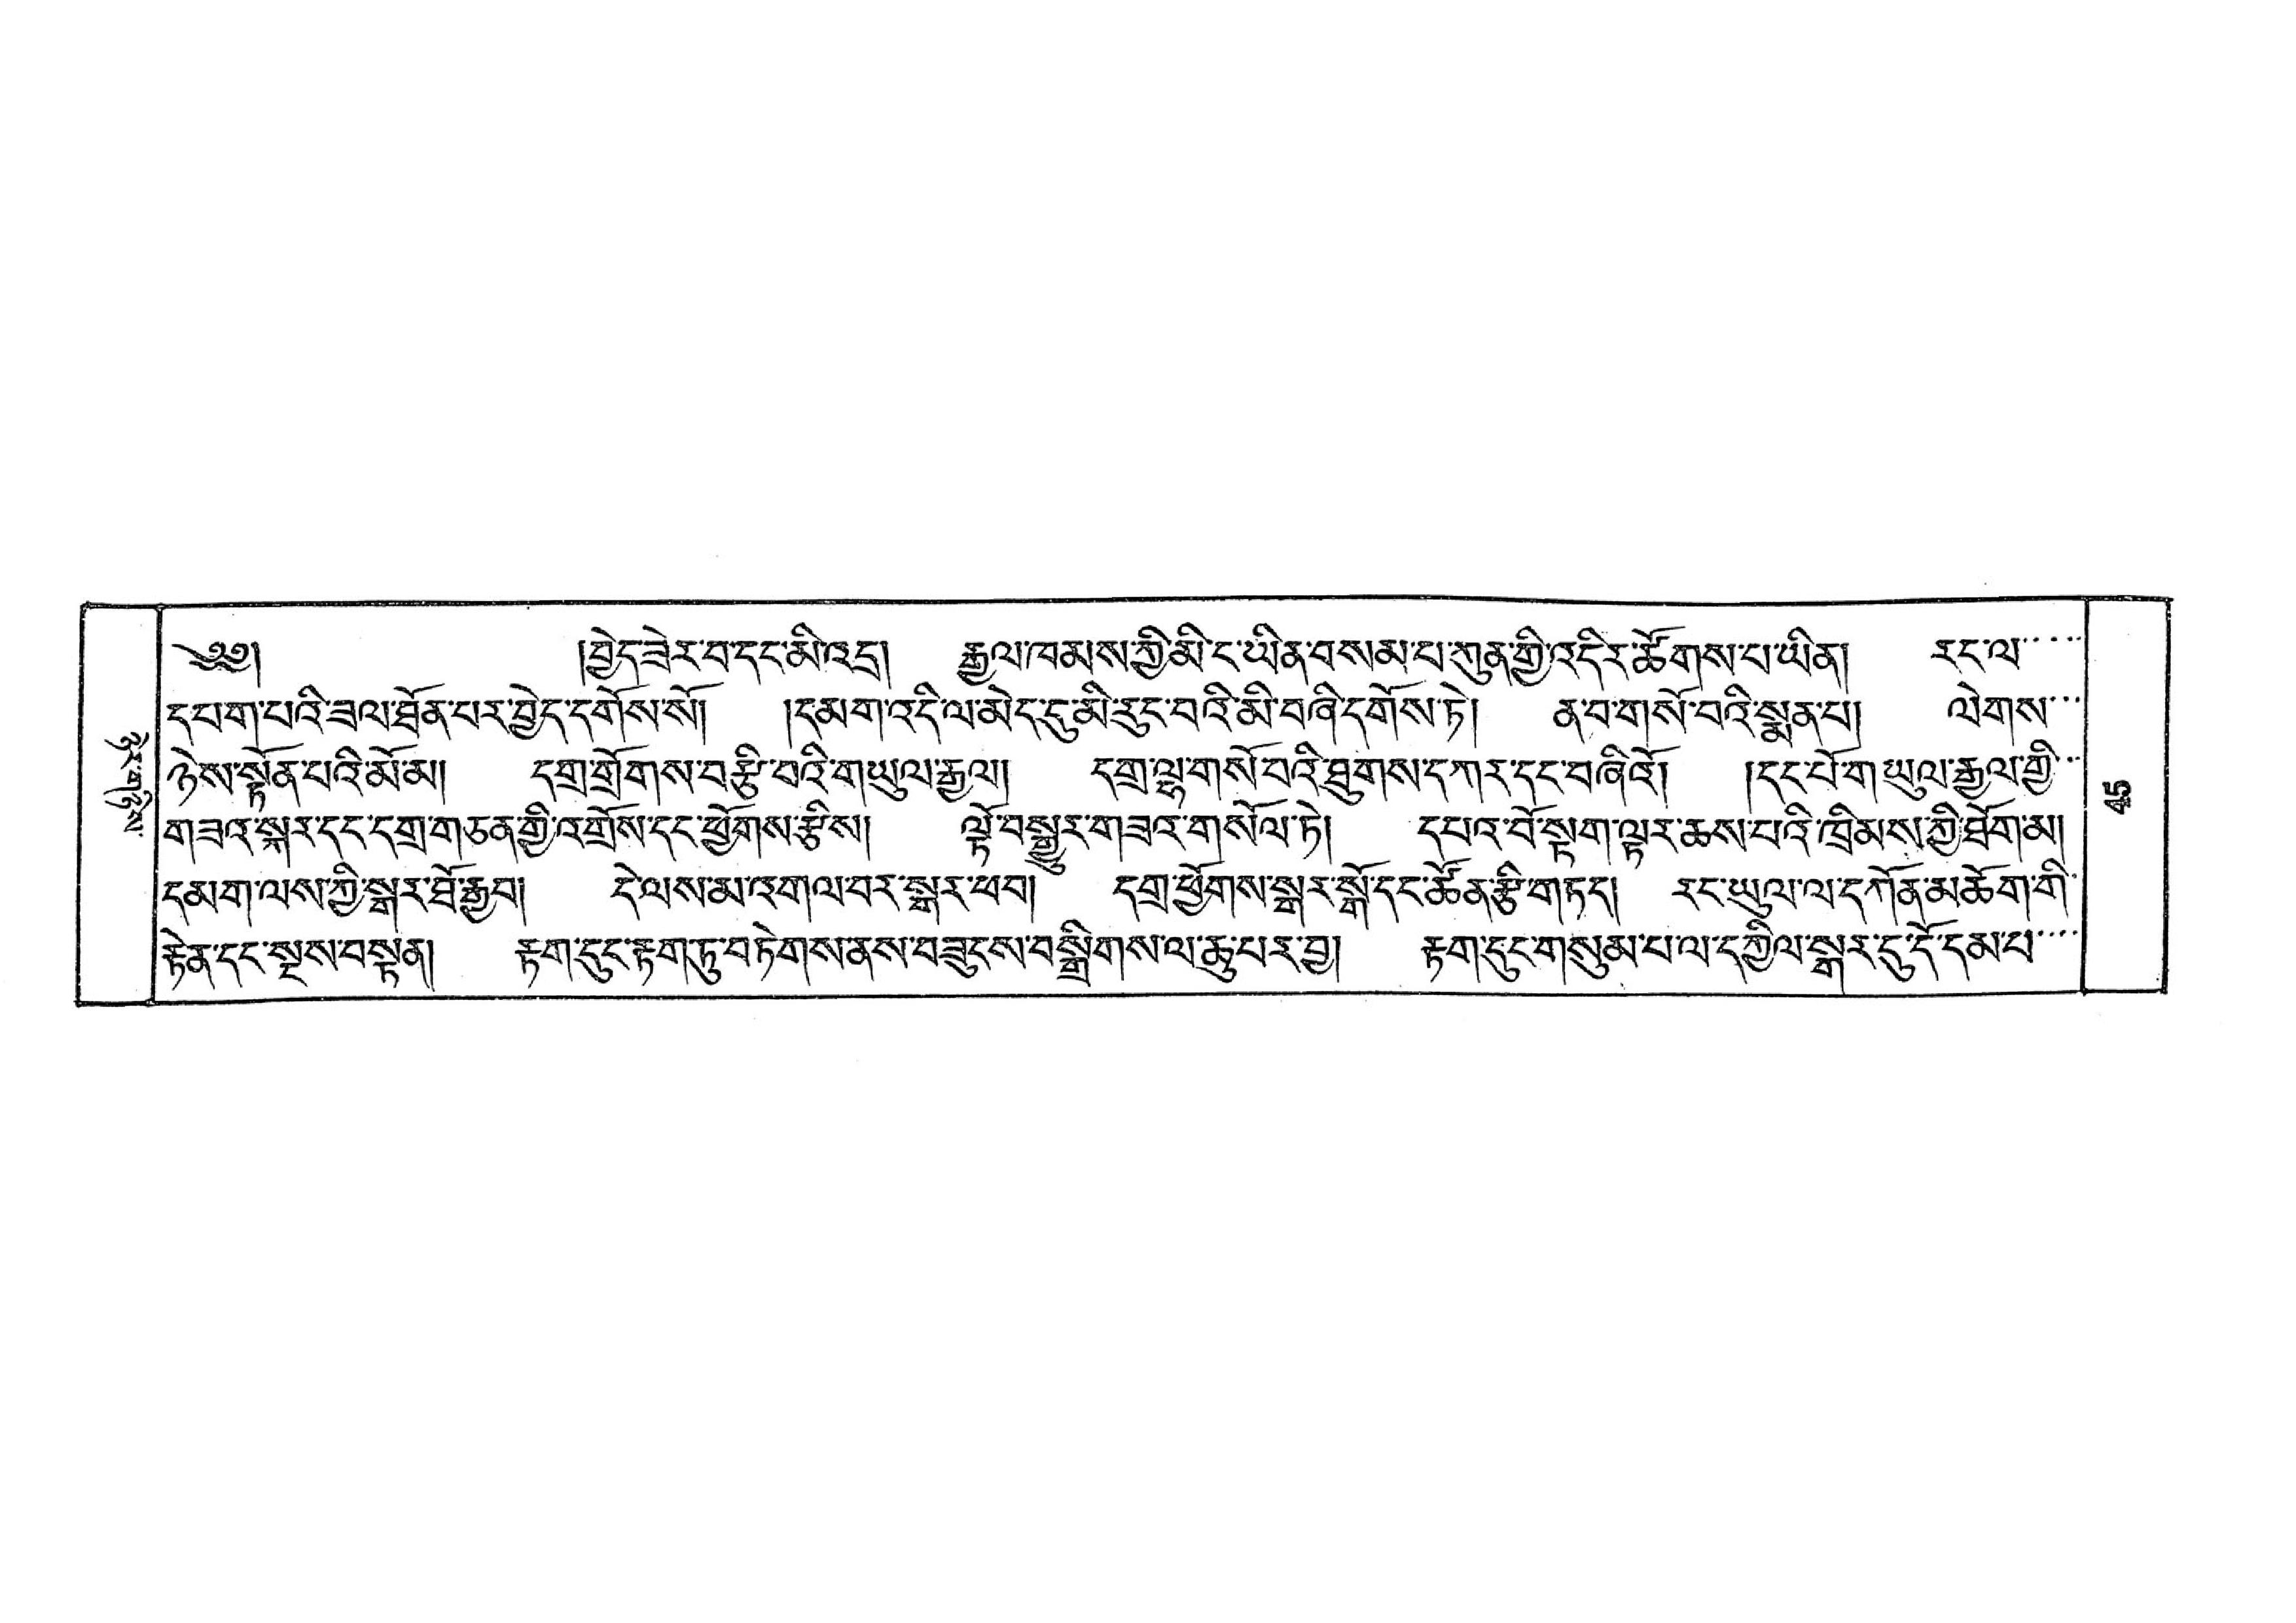ཉེར་གཉིས་
༄༅། །བྱེད་ཟེར་བ་དང་མི་འདྲ། རྒྱལ་ཁམས་ཀྱི་མི་ང་ཡིན་བསམ་པ་ཀུན་གྱི་འདིར་ཚོགས་པ་ཡིན། རང་ལ་་་་
དཔག་པའི་ཟལ་ཐོན་པར་བྱེད་དགོས་སོ། །དམག་འདིལ་མེད་དུ་མི་རུང་བའི་མི་བཞི་དགོས་ཏེ། ན་བ་གསོ་བའི་སྨན་པ། ལེགས་་་
ཉེས་སྣོན་པའི་མོ་མ། དགྲ་གྲོགས་བརྩི་བའི་གཡུལ་རྒྱལ། དགྲ་ལྷ་གསོ་བའི་ཐུགས་དཀར་དང་བཞིའོ། །དང་པོ་གཡུལ་རྒྱལ་གྱི་་་
གཟའ་སྐར་དང་དགྲ་གཅན་གྱི་འགྲོས་དང་ཕྱོགས་རྩིས། ལྟོ་བསྒྱུར་གཟའ་གསོལ་ཏེ། དཔའ་བོ་སྟག་ལྟར་ཆས་པའི་ཁྲིམས་ཀྱི་ཐོག་མ།
དམག་ལས་ཀྱི་སྒར་ཐོ་རྒྱབ། དེ་ལས་མ་འགལ་བར་སྒར་ཕབ། དགྲ་ཕྱོགས་སྒར་སྒོ་དང་ཚོན་རྩི་གཏད། རང་ཡུལ་ལ་དཀོན་མཆོག་གི་
རྟེན་དང་སྔས་བསྟན། རྟག་དུང་རྟག་ཏུ་བཏེགས་ནས་བཟུངས་བསྒྲིགས་ལ་ཆུ་པར་བྱ། རྟག་དུང་གསུམ་པ་ལ་དཀྱིལ་སྒར་དུ་དོ་དམ་པ་་་་
